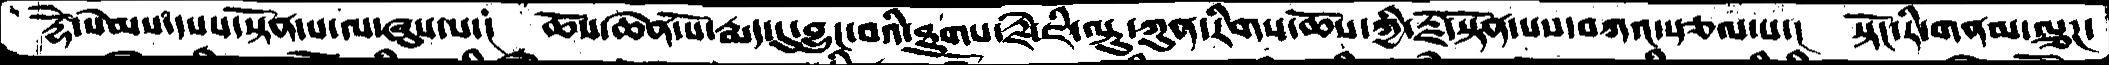རྡོེ་སེམས་དསས་སྟོན་པ་ལ་ཞུས་པ་།  ཆོས་ཆེན་པོ་རྨད་དུ་བྱུང་བའི་ཐུགས་རྗེ་ཇི་ལྟུ་ཀུན་རིགས་ཆོས་ཀྱི་རྗེ་སྟོན་པས་བཀའ་སྩལ་པ་།  སྟོང་རི་གནམ་ལྕཌ་
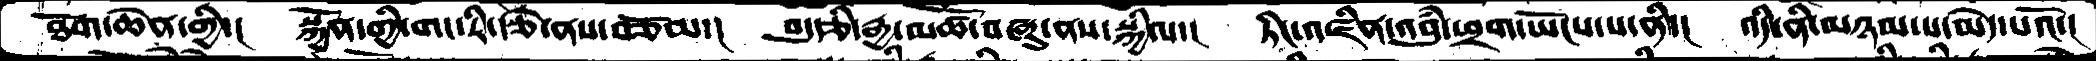ཐོག་ཆེན་གྱི་།   སྐྱོན་གྱི་གང་རི་རྩེ་ནས་བཅོམ་།  བདུརྩི་རྒྱ་མཚོ་བཞུ་ནས་སྐྱིལ་།  ཏིང་འཛིན་འབུཾ་ཕྲག་ཡོངས་པ་ནི་།  འདི་ནི་མཉམ་པ་མེད་པའོ་།
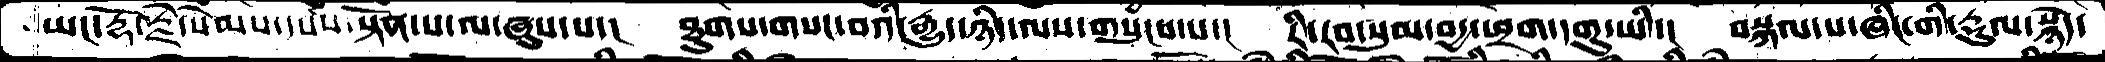ཡང་རྡོ་རྗེ་སེམས་དཔས་སྟོན་པ་ལ་ཞུས་པ་།  ཐུགས་གསང་བའི་རྒྱུད་ཉིད་ལས་གསུངས་པ་།  རི་རབ་སུམ་བདྱ་ཕྱག་དགུ་ཡི་།  བསྐལ་པ་ཞིང་གི་རྡུལ་སྙེད་
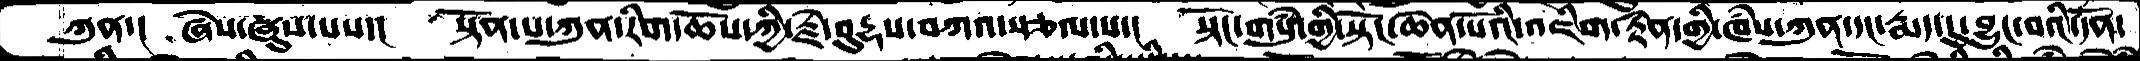ཀུན་།  ཞེས་ཞུས་པས་།  སྟོན་པ་ཀུན་རིག་ཆོས་ཀྱི་རྗེ་བུདྷས་བཀའ་སྩལ་པ་།   སྟོང་གསུཾ་གྱི་སྟོང་ཆེན་པོའི་འཇིག་རྟེན་གྱི་ཁཾས་ཀུན་དང་རྨད་དུ་བྱུང་བའི་དོན་
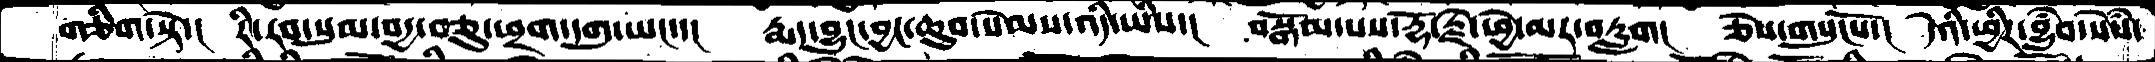གཅིག་སྟེ་།  རི་རབ་སུམ་བདྱ་བཅུ་ཕྲག་དགུ་ཡང་་།   རྨད་བྱུང་བྱང་ཆུབ་སེམས་འདི་ཡིས་།  བསྒོམ་པས་རྡོ་རྗེ་ཕྱེ་མར་བརླག།  ཅེས་གསུངསོ་།  དེའི་ཕྱིར་བྱུཾབ་སེཾས་
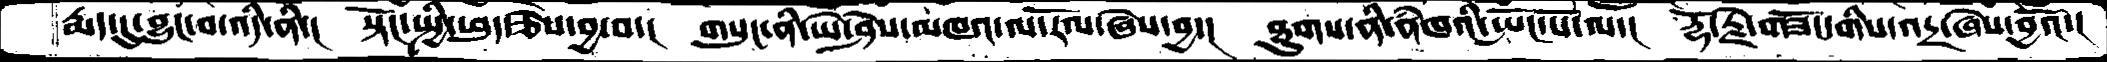རྨད་དུ་བྱུང་བ་འདི་ནི་།  སྟོང་སྤྱི་ཕུད་ཅེས་བྱ་བ་།  གསུང་ནི་ཡེ་ཤེས་མཁའ་ལ་རོལ་ཞེས་བྱ་།  ཐུགས་ནི་ནཾཁའི་སྤོང་པོ་ལ་།  རྡོ་རྗེ་གཟོང་གིས་འདྲ་ཞེས་བྱའོ་།
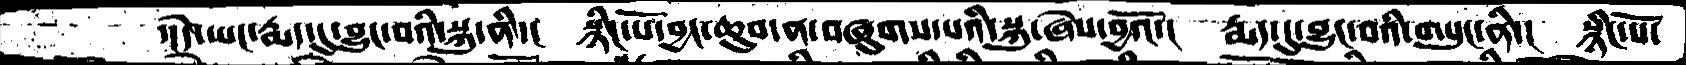་།དེ་ཡང་རྨད་དུ་བྱུང་བའི་སྐུ་ནི་།  སྙིང་པོ་བྱང་ཆུབ་ན་བཞུགས་པའི་སྐུ་ཞེས་བྱའོ་།  རྨད་དུ་བྱུང་བའི་གསུང་ནི་།  སྙིང་པོ་
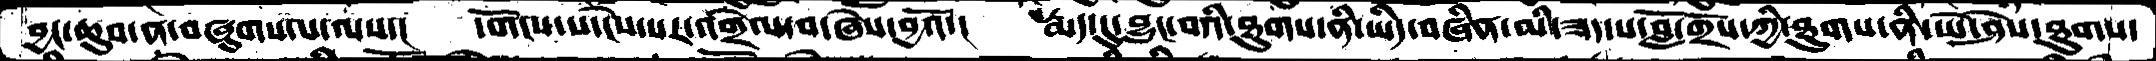བྱང་ཆུབ་ན་བཞུགས་པ་ལ་།  དགོངས་པ་ངེས་པར་འགྲེལ་བ་ཞེས་བྱའོ་།  རྨད་དུ་བྱུང་བའི་ཐུགས་ནི་ཡིད་བཞིན་མི་ཟད་པ་བློ་གྲོས་ཀྱི་ཐུགས་ནི་ཡེ་ཤེས་ཐུགས་
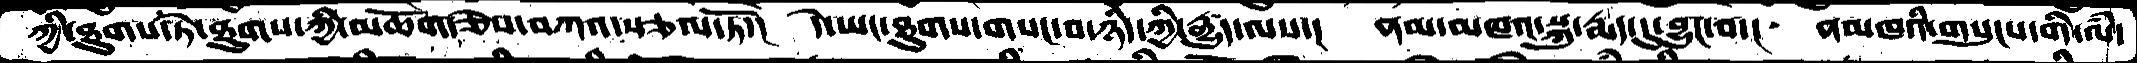ཀྱི་ཐུགས་ཏེ་ཐུགས་ཀྱི་མཆོག་ཅེས་བཀའ་སྩལ་ཏོ་།  དེ་ཡང་ཐུགས་གསང་བ་ཉིད་ཀྱི་རྒྱུད་ལས་།  ནམ་མཁའ་སྐུ་རྨད་དུ་བྱུང་བ་།  ནམཁའི་གསུངས་གི་ལཾ་
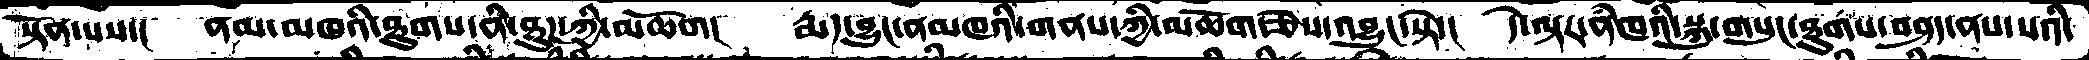སྟོན་པས་།  ནམ་མཁའི་ཐུགས་ནིཐུཌ་ཀྱི་མཆོག།  རྨད་བྱུང་ནམཁའི་གནས་ཀྱི་མཆོག་ཅེས་འབྱུང་སྟེ་།  དེ་ལྟར་ནཾཁའི་སྐུ་གསུང་ཐུགས་བཤད་ནས་སའི་
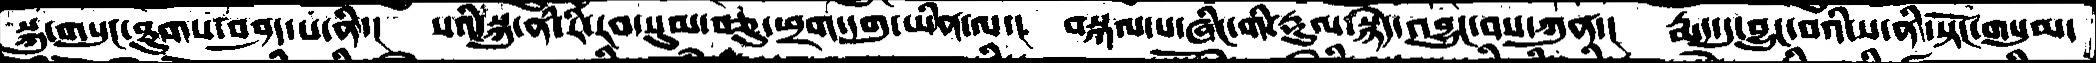སྐུ་གསུང་ཐུགས་བཤད་པ་ནི་།  སའི་སྐུ་ནི་རི་རབ་སུམ་བཅུ་ཕྲག་དགུ་་ཡིན་ལ་།  བསྐལ་པ་ཞིང་གི་རྡུལ་སྙེད་འབྱུང་བས་ཀུན་།  རྨད་དུ་བྱུང་བའི་ས་ནི་སྟོང་གསུམ་
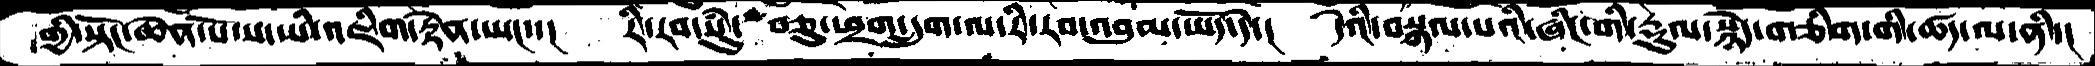གྱི་སྟོང་ཆེན་པོ་ས་ཡི་འཇིག་རྟེན་ཡང་་།  རི་རབ་སུཾ་ བཅུ་ཕྲག་དྲུག་ལ་རི་རབ་འབུམ་ཡོད་དེ་།  དེའི་བསྐལ་པའི་ཞིང་གི་རྡུལ་སྙེད་གཅིག་གི་ཚད་ལ་ནི་།
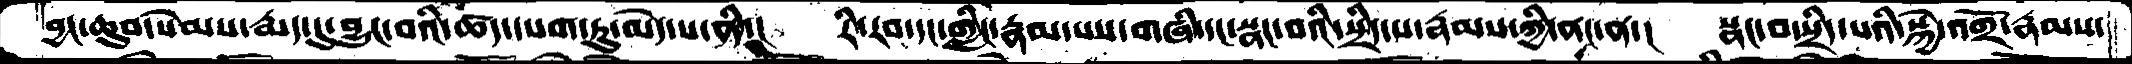བྱང་ཆུབ་སེམས་རྨད་དུ་བྱུང་བའི་ཚད་དཔག་ཏུ་མེད་པ་ནི་།  རི་རབ་དང་གླིང་རྣམ་པས་གཞི་དང་སྣང་བའི་སྲིད་པ་རྣམས་ཀྱི་ནང་ན་།  སྣང་བ་སྲིད་པའི་སྐྱེ་འགྲོ་རྣམས་
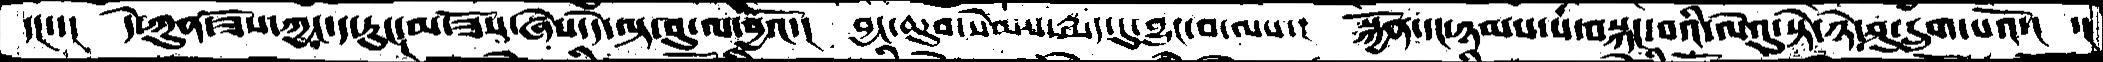དང་་།   དེ་ཀུན་ཟོས་ཀྱང་ད་རུང་མ་ཟོས་ཞེས་དེ་ལྟ་བུ་ལ་བྱའོ་།  བྱང་ཆུབ་སེམས་རྨད་དུ་བྱུང་བ་ལས་།  སྐྱོན་དང་ཉམས་པ་བསྐང་བའི་ལེའུ་སྟེ་ཉེ་ཤུ་དྲུག་པའོ་།   ་།
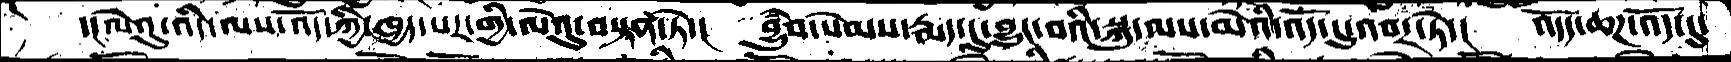དང་ལེའུ་འདི་ལས་འོད་ཀྱི་ཁྱད་པར་གྱི་ལེའུ་བསྟན་ཏེ་།   བྱུཾབ་སེམས་རྨད་དུ་བྱུང་བའི་སྐུ་ལས་མེའི་འོད་དུ་འབར་ཏེ་།   འདོད་ཆཌ་འོད་དུ་
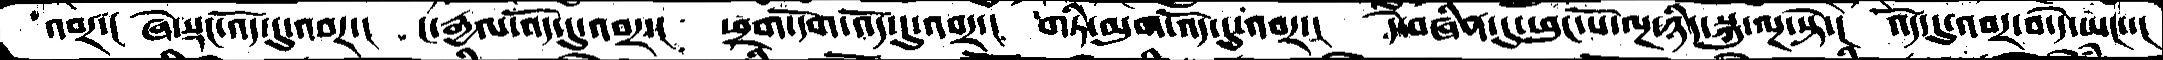འབར་།   ཞེ་སྡང་འོད་དུ་འབར་།   ང་རྒྱལ་འོད་དུ་འབར་།  ཕྲག་དོག་འོད་དུ་འབར་།  གཏི་མུག་འོད་དུ་འབར་།  དེ་བཞིན་དུ་ཕུང་པོ་ལྔ་ཉིད་སྐུ་ལྔ་སྟེ་།   འོད་དུ་འབར་བ་དེ་ཡང་་།
